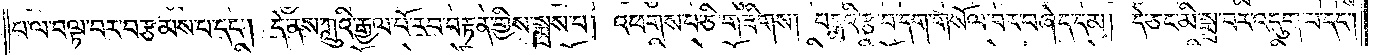པ་ལ་བལྟ་བར་བརྩམས་པ་དང༌། དེ་ནས་ཀླུའི་རྒྱལ་པོ་རབ་བརྟན་གྱིས་སྨྲས་པ། འཕགས་པ་ཅི་གཟིགས། པདྨའི་རྩ་བ་དག་གསོལ་བར་བཞེད་དམ། དེ་ཅང་མི་སྨྲ་བར་འདུག་པ་དང༌།
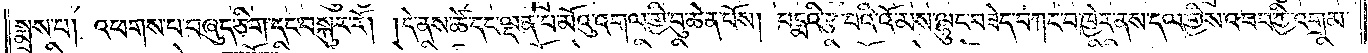སྨྲས་པ། འཕགས་པ་བཞུད་ཅིག་དང་བསྐུར་རོ། །དེ་ནས་ཚེ་དང་ལྡན་པ་མོའུ་འགལ་གྱི་བུ་ཆེན་པོས། པདྨའི་རྩ་བའི་འོ་མས་ལྷུང་བཟེད་བཀང་བ་ཁྱེར་ནས་དལ་གྱིས་འབབ་ཀྱི་འགྲམ་
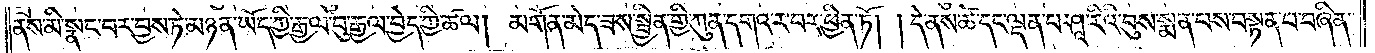ནས་མི་སྣང་བར་བྱས་ཏེ་མཉན་ཡོད་ཀྱི་རྒྱལ་བུ་རྒྱལ་བྱེད་ཀྱི་ཚལ། མགོན་མེད་ཟས་སྦྱིན་གྱི་ཀུན་དགའ་ར་བར་ཕྱིན་ཏོ། །དེ་ནས་ཚེ་དང་ལྡན་པ་ཤཱ་རིའི་བུས་སྨན་པས་བསྟན་པ་བཞིན་
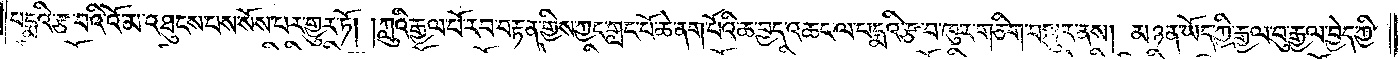པདྨའི་རྩ་བའི་འོ་མ་འཐུངས་པས་སོས་པར་གྱུར་ཏོ། །ཀླུའི་རྒྱལ་པོ་རབ་བརྟན་གྱིས་ཀྱང་གླང་པོ་ཆེ་ནག་པོའི་ཆ་བྱད་འཆང་ལ་པདྨའི་རྩ་བ་ཁུར་གཅིག་བསྐུར་ནས། མཉན་ཡོད་ཀྱི་རྒྱལ་བུ་རྒྱལ་བྱེད་ཀྱི་
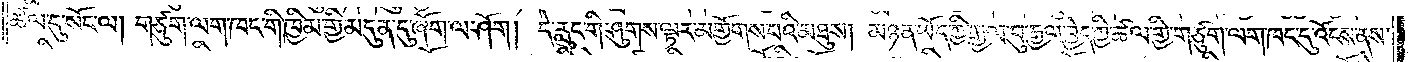ཚལ་དུ་སོང་ལ། གཙུག་ལག་ཁང་གི་ཁྱིམ་གྱི་མདུན་དུ་ཞོག་ལ་ཤོག། དེ་རླུང་གི་ཤུགས་ལྟར་མགྱོགས་པའི་མཐུས། མཉན་ཡོད་ཀྱི་རྒྱལ་བུ་རྒྱལ་བྱེད་ཀྱི་ཚལ་གྱི་གཙུག་ལག་ཁང་དུ་འོངས་ནས་
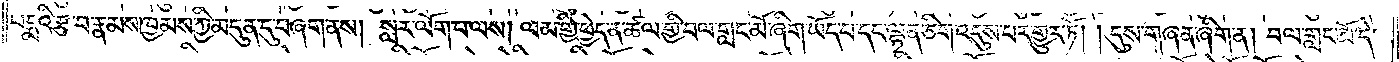པདྨའི་རྩ་བ་རྣམས་ཁྱམས་ཀྱི་མདུན་དུ་བཞག་ནས། སླར་ལོག་པ་ལས། ལམ་གྱི་ཕྱེད་ན་ཚལ་གྱི་བལ་གླང་མོ་ཞིག་ཡོད་པ་དང་ལྷན་ཅིག་འདུས་པར་གྱུར་ཏོ། །དུས་གཞན་ཞིག་ན། བལ་གླང་མོ་དེ་
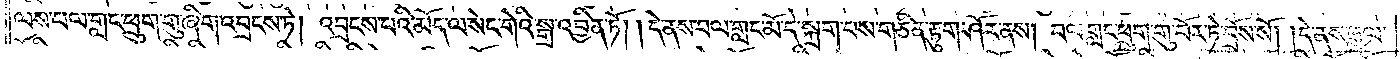ལས་བལ་གླང་ཕྲུག་གུ་ཞིག་འབྲངས་ཏེ། འབྲངས་པའི་མོད་ལ་སེང་གེའི་སྒྲ་འབྱིན་ཏོ། །དེ་ནས་བལ་གླང་མོ་དེ་སྐྲག་པས་གཅིན་རྟུག་ཤོར་ནས། བལ་གླང་ཕྲུག་གུ་པོར་ཏེ་བྲོས་སོ། །དེ་ནས་རྒྱལ་
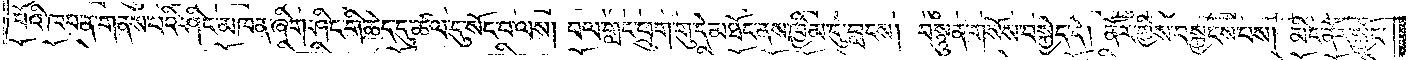པོའི་ཁབ་ན་གནས་པའི་ཤིང་མཁན་ཞིག་ཤིང་གི་ཆེད་དུ་ཚལ་དུ་སོང་བ་ལས། བལ་གླང་ཕྲུག་གུ་དེ་མཐོང་ནས་ཁྱིམ་དུ་བླངས། བསྙུན་གསོས་བསྐྱེད་དེ། ནོར་གྱིས་བསྐྱངས་པས། མིང་ནོར་སྐྱོང་
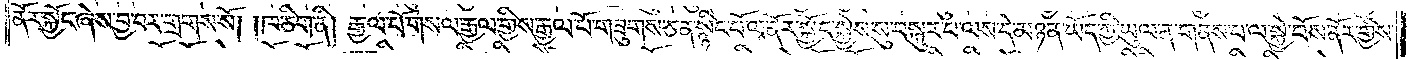ནོར་སྐྱོང་ཞེས་བྱ་བར་གྲགས་སོ། །ཁ་ཅིག་ནི། རྒྱལ་པོ་གསལ་རྒྱལ་གྱིས་རྒྱལ་པོ་གཟུགས་ཅན་སྙིང་པོ་ལ་ནོར་སྐྱོང་སྐྱེས་སུ་བསྐུར་བ་ལས་དེ་མཉན་ཡོད་ཀྱི་ཡུལ་ན་གནས་པ་ལ་སྐྱེ་བོས་ནོར་གྱིས་
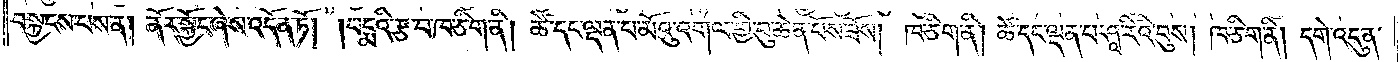བསྐྱངས་པས་ན། ནོར་སྐྱོང་ཞེས་འདོན་ཏོ། །པདྨའི་རྩ་བ་ཁ་ཅིག་ནི། ཚེ་དང་ལྡན་པ་མོའུ་འགལ་གྱི་བུ་ཆེན་པོས་ཟོས། ཁ་ཅིག་ནི། ཚེ་དང་ལྡན་པ་ཤཱ་རིའི་བུས། ཁ་ཅིག་ནི། དགེ་འདུན་
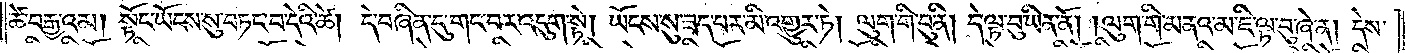ཚེ་བརྒྱ་འམ། སྟོང་ཡོངས་སུ་བཏང་བ་དེའི་ཚེ། དེ་བཞིན་དུ་གང་བར་འདུག་སྟེ། ཡོངས་སུ་ཟད་པར་མི་འགྱུར་ཏེ། ལུག་གི་བུ་ནི། དེ་ལྟ་བུ་ཡིན་ནོ། །ལུག་གི་མནའ་མ་ཇི་ལྟ་བུ་ཞེ་ན། དེས་
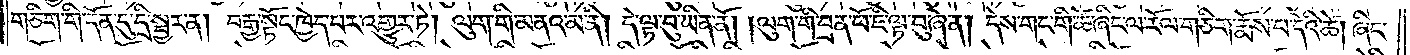གཅིག་གི་དོན་དུ་དྲི་སྦྱར་ན། བརྒྱ་སྟོང་ཁྱེད་པར་འགྱུར་ཏེ། ལུག་གི་མནའ་མ་ནི། དེ་ལྟ་བུ་ཡིན་ནོ། །ལུག་གི་བྲན་ཕོ་ཇི་ལྟ་བུ་ཞེ་ན། དེས་གང་གི་ཚེ་ཞིང་ལ་རོལ་གཅིག་རྨོས་པ་དེའི་ཚེ། ཞིང་
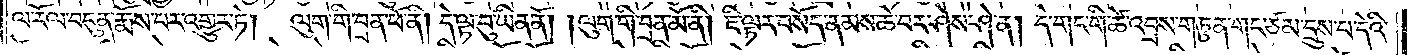ལ་རོལ་བདུན་རྨོས་པར་འགྱུར་ཏེ། ལུག་གི་བྲན་ཕོ་ནི། དེ་ལྟ་བུ་ཡིན་ནོ། །ལུག་གི་བྲན་མོ་ནི། ཇི་ལྟར་བསོད་ནམས་ཆེ་བར་ཤེས་ཤེ་ན། དེ་གང་གི་ཚེ་འབྲས་གཏུན་གང་ཙམ་དྲུས་པ་དེའི་
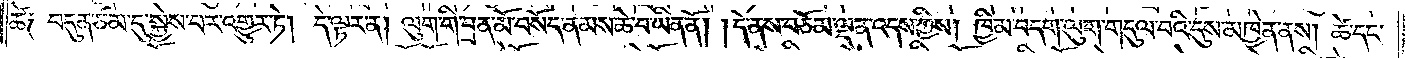ཚེ༑ བདུན་ཙམ་དུ་སྐྱེས་པར་འགྱུར་ཏེ། དེ་ལྟར་ན། ལུག་གི་བྲན་མོ་བསོད་ནམས་ཆེ་བ་ཡིན་ནོ། །དེ་ནས་བཅོམ་ལྡན་འདས་ཀྱིས། ཁྱིམ་བདག་ལུག་གདུལ་བའི་དུས་མཁྱེན་ནས། ཚེ་དང་
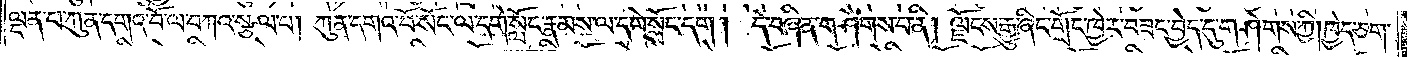ལྡན་པ་ཀུན་དགའ་བོ་ལ་བཀའ་སྩལ་པ། ཀུན་དགའ་བོ་སོང་ལ་དགེ་སློང་རྣམས་ལ་དགེ་སློང་དག། དེ་བཞིན་གཤེགས་པ་ནི། ལྗོངས་རྒྱུ་ཞིང་གྲོང་ཁྱེར་བཟང་བྱེད་དུ་གཤེགས་ཀྱི། ཁྱེད་ཅག་
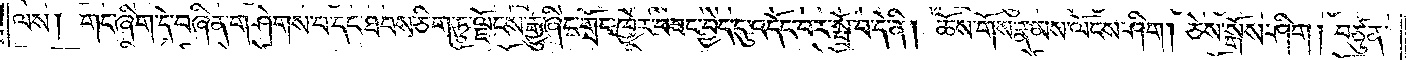ལས། གང་ཞིག་དེ་བཞིན་གཤེགས་པ་དང་ཐབས་ཅིག་ཏུ་ལྗོངས་རྒྱུ་ཞིང་གྲོང་ཁྱེར་བཟང་བྱེད་དུ་འདོང་བར་སྤྲོ་བ་དེ་ནི། ཆོས་གོས་རྣམས་ལོངས་ཤིག། ཅེས་སྒོས་ཤིག། བཙུན་
